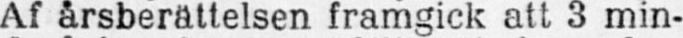Af årsberättelsen framgick att 3 min-
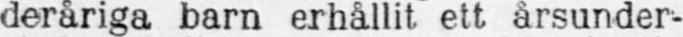deråriga barn erhållit, ett årsunder-
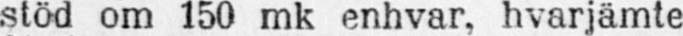stöd om 150 mk enhvar, hvarjämte
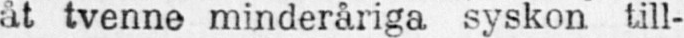åt tvenne minderåriga syskon till-
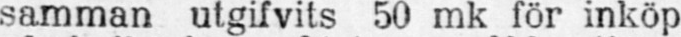samman utgifvits 50 mk för inköp
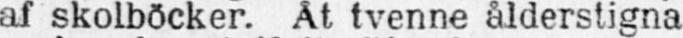af skolböcker. Åt tvenne ålderstigna
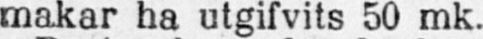makar ha utgifvits 50 mk.
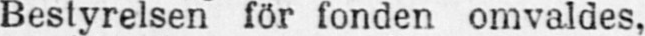Bestyrelsen för fonden omvaldes,
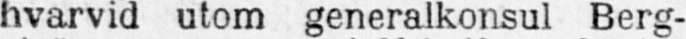hvarvid utom generalkonsul Berg-
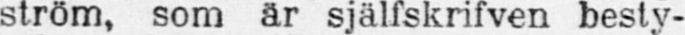ström, som är själfskrifven besty-
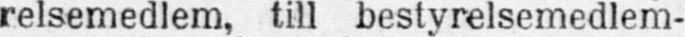relsemedlem, till bestyrelsemedlem-
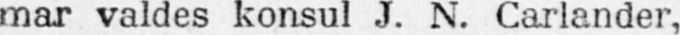mar valdes konsul J. N. Carlander,
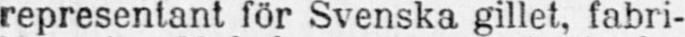representant för Svenska gillet, fabri-
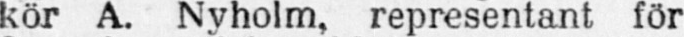kör A. Nyholm, representant för
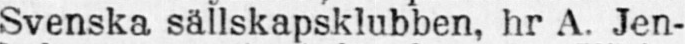Svenska sällskapsklubben, hr A. Jen-
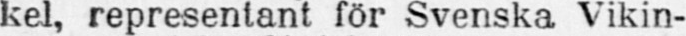kel, representant för Svenska Vikin-
